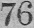76
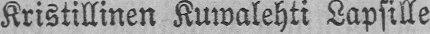Kristillinen Kuwalehti Lapsille.
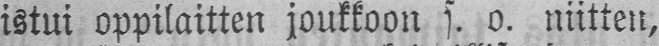istui oppilaitten joukkoon s. o. niitten,
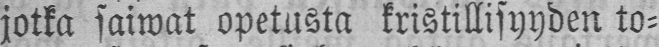jotka saiwat opetusta kristillisyyden to-
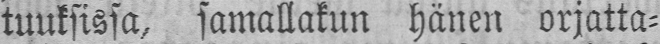tuuksissa, samallakun hänen orjata-
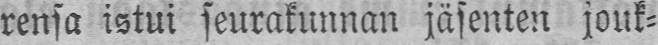rensa istui seurakunnan jäsenten jouk-
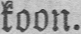koon.
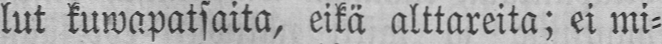lut kuwapatsaita, eikä alttareita; ei mi-
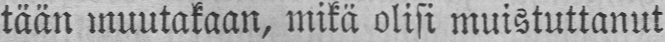tään muutakaan, mikä olisi muistuttanut
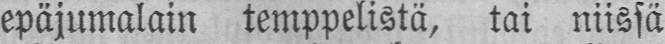epäjumalain temppelistä, tai niissä
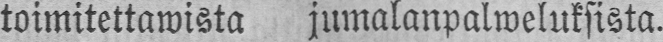toimitettawista jumalanpalweluksista.
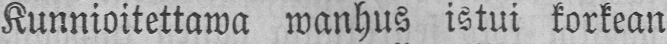Kunnioitettawa wanhus istui korkean
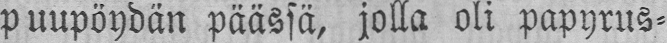puupöydän päässä, jolla oli papyrus-
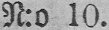N:o 10.
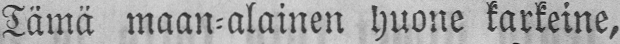Tämä maan-alainen huone karkeine,
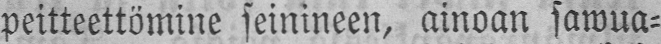peitteettömine seinineen, ainoan sawua-
